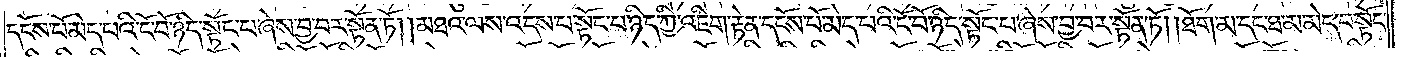དངོས་པོ་མེད་པའི་ངོ་བོ་ཉིད་སྟོང་པ་ཞེས་བྱ་བར་སྟོན་ཏོ། །མཐའ་ལས་འདས་པ་སྟོང་པ་ཉིད་ཀྱི་འཇིག་རྟེན་དངོས་པོ་མེད་པའི་ངོ་བོ་ཉིད་སྟོང་པ་ཞེས་བྱ་བར་སྟོན་ཏོ། །ཐོག་མ་དང་ཐ་མ་མེད་པ་སྟོང་
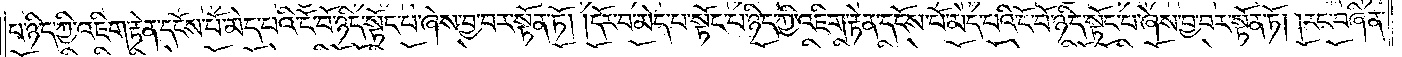པ་ཉིད་ཀྱི་འཇིག་རྟེན་དངོས་པོ་མེད་པའི་ངོ་བོ་ཉིད་སྟོང་པ་ཞེས་བྱ་བར་སྟོན་ཏོ། །དོར་བ་མེད་པ་སྟོང་པ་ཉིད་ཀྱི་འཇིག་རྟེན་དངོས་པོ་མེད་པའི་ངོ་བོ་ཉིད་སྟོང་པ་ཞེས་བྱ་བར་སྟོན་ཏོ། །རང་བཞིན་
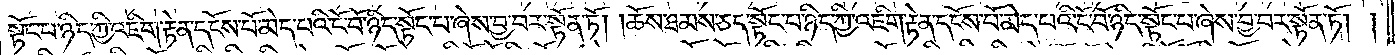སྟོང་པ་ཉིད་ཀྱི་འཇིག་རྟེན་དངོས་པོ་མེད་པའི་ངོ་བོ་ཉིད་སྟོང་པ་ཞེས་བྱ་བར་སྟོན་ཏོ། །ཆོས་ཐམས་ཅད་སྟོང་པ་ཉིད་ཀྱི་འཇིག་རྟེན་དངོས་པོ་མེད་པའི་ངོ་བོ་ཉིད་སྟོང་པ་ཞེས་བྱ་བར་སྟོན་ཏོ། །
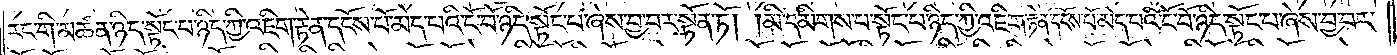རང་གི་མཚན་ཉིད་སྟོང་པ་ཉིད་ཀྱི་འཇིག་རྟེན་དངོས་པོ་མེད་པའི་ངོ་བོ་ཉིད་སྟོང་པ་ཞེས་བྱ་བར་སྟོན་ཏོ། །མི་དམིགས་པ་སྟོང་པ་ཉིད་ཀྱི་འཇིག་རྟེན་དངོས་པོ་མེད་པའི་ངོ་བོ་ཉིད་སྟོང་པ་ཞེས་བྱ་བར་
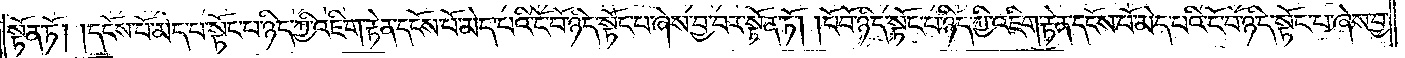སྟོན་ཏོ། །དངོས་པོ་མེད་པ་སྟོང་པ་ཉིད་ཀྱི་འཇིག་རྟེན་དངོས་པོ་མེད་པའི་ངོ་བོ་ཉིད་སྟོང་པ་ཞེས་བྱ་བར་སྟོན་ཏོ། །ངོ་བོ་ཉིད་སྟོང་པ་ཉིད་ཀྱི་འཇིག་རྟེན་དངོས་པོ་མེད་པའི་ངོ་བོ་ཉིད་སྟོང་པ་ཞེས་བྱ་
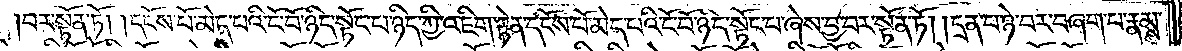བར་སྟོན་ཏོ། །དངོས་པོ་མེད་པའི་ངོ་བོ་ཉིད་སྟོང་པ་ཉིད་ཀྱི་འཇིག་རྟེན་དངོས་པོ་མེད་པའི་ངོ་བོ་ཉིད་སྟོང་པ་ཞེས་བྱ་བར་སྟོན་ཏོ། །དྲན་པ་ཉེ་བར་བཞག་པ་རྣམས་
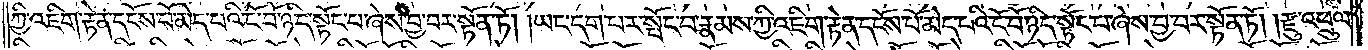ཀྱི་འཇིག་རྟེན་དངོས་པོ་མེད་པའི་ངོ་བོ་ཉིད་སྟོང་པ་ཞེས་བྱ་བར་སྟོན་ཏོ། །ཡང་དག་པར་སྤོང་བ་རྣམས་ཀྱི་འཇིག་རྟེན་དངོས་པོ་མེད་པའི་ངོ་བོ་ཉིད་སྟོང་པ་ཞེས་བྱ་བར་སྟོན་ཏོ། །རྫུ་འཕྲུལ་
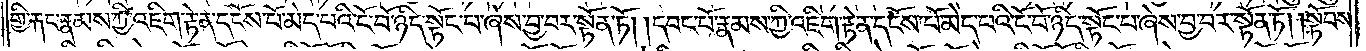གྱི་རྐང་པ་རྣམས་ཀྱི་འཇིག་རྟེན་དངོས་པོ་མེད་པའི་ངོ་བོ་ཉིད་སྟོང་པ་ཞེས་བྱ་བར་སྟོན་ཏོ། །དབང་པོ་རྣམས་ཀྱི་འཇིག་རྟེན་དངོས་པོ་མེད་པའི་ངོ་བོ་ཉིད་སྟོང་པ་ཞེས་བྱ་བར་སྟོན་ཏོ། །སྟོབས་
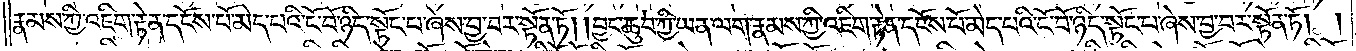རྣམས་ཀྱི་འཇིག་རྟེན་དངོས་པོ་མེད་པའི་ངོ་བོ་ཉིད་སྟོང་པ་ཞེས་བྱ་བར་སྟོན་ཏོ། །བྱང་ཆུབ་ཀྱི་ཡན་ལག་རྣམས་ཀྱི་འཇིག་རྟེན་དངོས་པོ་མེད་པའི་ངོ་བོ་ཉིད་སྟོང་པ་ཞེས་བྱ་བར་སྟོན་ཏོ། །
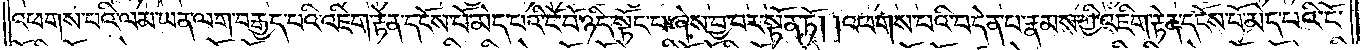འཕགས་པའི་ལམ་ཡན་ལག་བརྒྱད་པའི་འཇིག་རྟེན་དངོས་པོ་མེད་པའི་ངོ་བོ་ཉིད་སྟོང་པ་ཞེས་བྱ་བར་སྟོན་ཏོ། །འཕགས་པའི་བདེན་པ་རྣམས་ཀྱི་འཇིག་རྟེན་དངོས་པོ་མེད་པའི་ངོ་
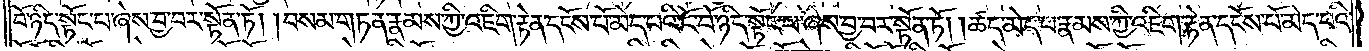བོ་ཉིད་སྟོང་པ་ཞེས་བྱ་བར་སྟོན་ཏོ། །བསམ་གཏན་རྣམས་ཀྱི་འཇིག་རྟེན་དངོས་པོ་མེད་པའི་ངོ་བོ་ཉིད་སྟོང་པ་ཞེས་བྱ་བར་སྟོན་ཏོ། །ཚད་མེད་པ་རྣམས་ཀྱི་འཇིག་རྟེན་དངོས་པོ་མེད་པའི་
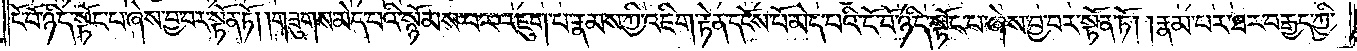ངོ་བོ་ཉིད་སྟོང་པ་ཞེས་བྱ་བར་སྟོན་ཏོ། །གཟུགས་མེད་པའི་སེམས་པར་འཇུག་པ་རྣམས་ཀྱི་འཇིག་རྟེན་དངོས་པོ་མེད་པའི་ངོ་བོ་ཉིད་སྟོང་པ་ཞེས་བྱ་བར་སྟོན་ཏོ། །རྣམ་པར་ཐར་པ་བརྒྱད་ཀྱི་
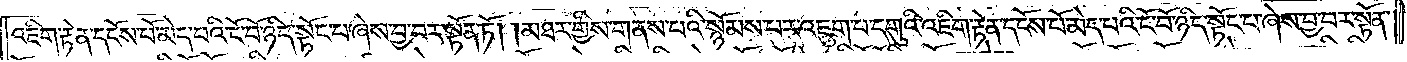འཇིག་རྟེན་དངོས་པོ་མེད་པའི་ངོ་བོ་ཉིད་སྟོང་པ་ཞེས་བྱ་བར་སྟོན་ཏོ། །མཐར་གྱིས་གནས་པའི་སྙོམས་པར་འཇུག་པ་དགུའི་འཇིག་རྟེན་དངོས་པོ་མེད་པའི་ངོ་བོ་ཉིད་སྟོང་པ་ཞེས་བྱ་བར་སྟོན་
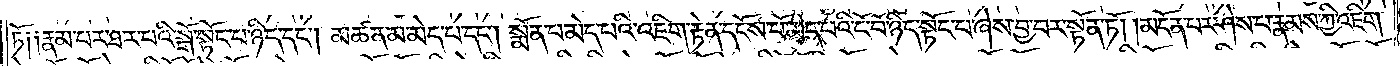ཏོ༑ ༑རྣམ་པར་ཐར་པའི་སྒོ་སྟོང་པ་ཉིད་དང༌། མཚན་མ་མེད་པ་དང༌། སྨོན་པ་མེད་པའི་འཇིག་རྟེན་དངོས་པོ་མེད་པའི་ངོ་བོ་ཉིད་སྟོང་པ་ཞེས་བྱ་བར་སྟོན་ཏོ། །མངོན་པར་ཤེས་པ་རྣམས་ཀྱི་འཇིག་
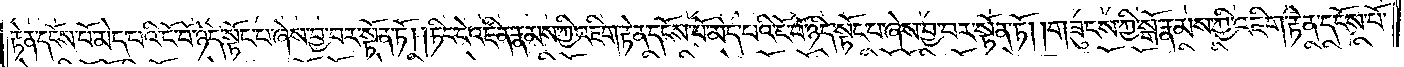རྟེན་དངོས་པོ་མེད་པའི་ངོ་བོ་ཉིད་སྟོང་པ་ཞེས་བྱ་བར་སྟོན་ཏོ། །ཏིང་ངེ་འཛིན་རྣམས་ཀྱི་འཇིག་རྟེན་དངོས་པོ་མེད་པའི་ངོ་བོ་ཉིད་སྟོང་པ་ཞེས་བྱ་བར་སྟོན་ཏོ། །གཟུངས་ཀྱི་སྒོ་རྣམས་ཀྱི་འཇིག་རྟེན་དངོས་པོ་
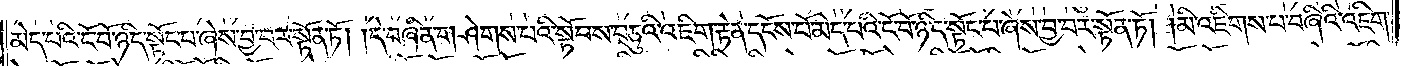མེད་པའི་ངོ་བོ་ཉིད་སྟོང་པ་ཞེས་བྱ་བར་སྟོན་ཏོ། །དེ་བཞིན་གཤེགས་པའི་སྟོབས་བཅུའི་འཇིག་རྟེན་དངོས་པོ་མེད་པའི་ངོ་བོ་ཉིད་སྟོང་པ་ཞེས་བྱ་བར་སྟོན་ཏོ། །མི་འཇིགས་པ་བཞིའི་འཇིག་
